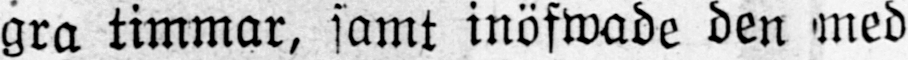gra timmar, samt inöfwade den med
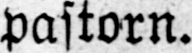pastorn.
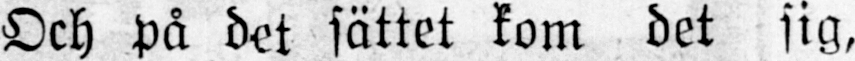Och på det sättet kom det sig,
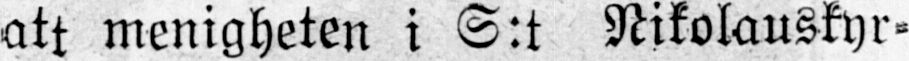att menigheten i S:t Nikolauskyr-
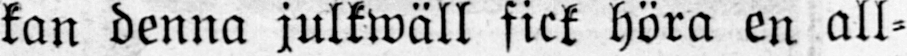kan denna julkwäll fick höra en all-
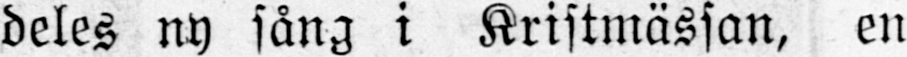deles ny sång i Kristmässan, en
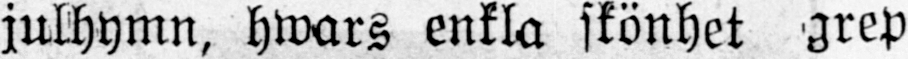julhymn, hwars enkla skönhet grep
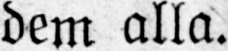dem alla.
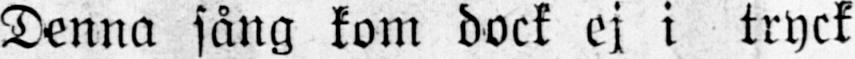Denna sång kom dock ej i tryck
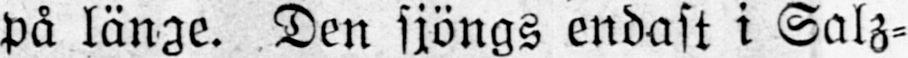på länge. Den sjöngs endast i Salz-
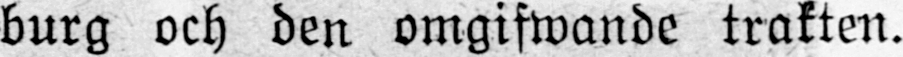burg och den omgifwande trakten.
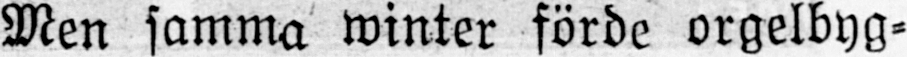Men samma winter förde orgelbyg-
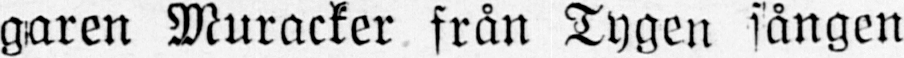garen Muracker från Tygen sången
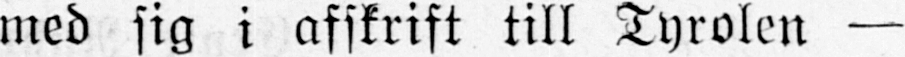med sig i afskrift till Tyrolen —
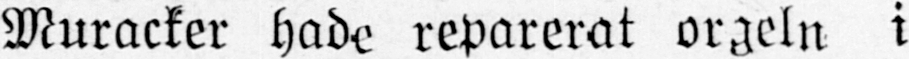Muracker hade reparerat orgeln i
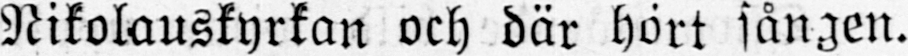Nikolauskyrkan och där hört sången.
